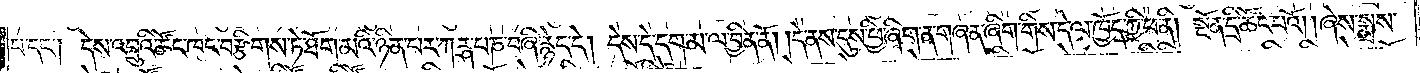པ་དང༌། དེས་འབྲུའི་ཚོང་ཁང་བརྩིགས་ཏེ་ཐོག་མའི་ཉིན་པར་ཀཪྴ་པ་ཎ་བཞི་རྙེད་དེ། དེས་དེ་དག་མ་ལ་བྱིན་ནོ། །དེ་ནས་དུས་ཕྱི་ཞིག་ན་གཞན་ཞིག་གིས་དེ་ལ་ཁྱོད་ཀྱི་ཕ་ནི། སྔོན་དྲི་ཚོང་པའོ། །ཞེས་སྨྲས་
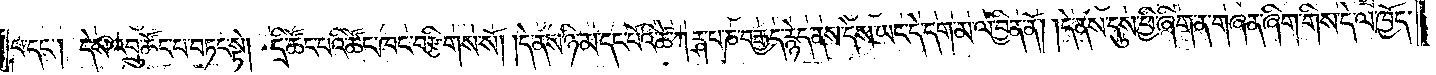པ་དང༌། དེས་འབྲུ་ཚོང་པ་བཏང་སྟེ། དྲི་ཚོང་པའི་ཚོང་ཁང་བརྩིགས་སོ། །དེ་ནས་ཉི་མ་དང་པོའི་ཚེ་ཀཪྴ་པ་ཎ་བརྒྱད་རྙེད་ནས་དེས་ཡང་དེ་དག་མ་ལ་བྱིན་ནོ། །དེ་ནས་དུས་ཕྱི་ཞིག་ན་གཞན་ཞིག་གིས་དེ་ལ་ཁྱོད་
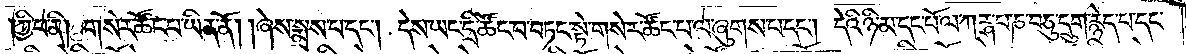ཀྱི་ཕ་ནི། གསེར་ཚོང་པ་ཡིན་ནོ། །ཞེས་སྨྲས་པ་དང༌། དེས་ཡང་དྲི་ཚོང་པ་བཏང་སྟེ་གསེར་ཚོང་པ་ལ་ཞུགས་པ་དང༌། དེའི་ཉི་མ་དང་པོ་ལ་ཀཪྴ་པ་ཎ་བཅུ་དྲུག་རྙེད་པ་དང་
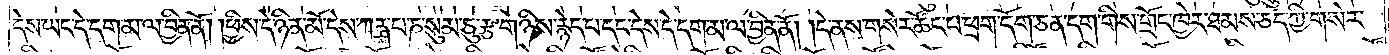དེས་ཡང་དེ་དག་མ་ལ་བྱིན་ནོ། །ཕྱིས་དེ་ཉིན་མོ་དེས་ཀཪྴ་པ་ཎ་སུམ་ཅུ་རྩ་གཉིས་རྙེད་པ་དང་དེས་དེ་དག་མ་ལ་བྱིན་ནོ། །དེ་ནས་གསེར་ཚོང་པ་ཕྲག་དོག་ཅན་དག་གིས་གྲོང་ཁྱེར་ཐམས་ཅད་ཀྱི་གསེར་
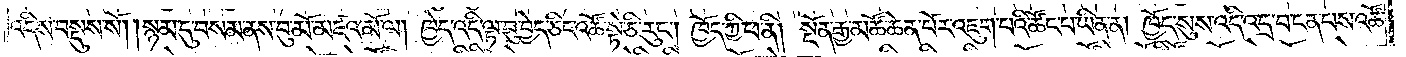འདིས་བསྡུས་སོ། །སྙམ་དུ་བསམ་ནས་བུ་མོ་མཛའ་མོ་ལ། ཁྱེད་འདི་ལྟ་བུ་བྱེད་ཅིང་འཚོ་སྟེ་ཅི་རུང༌། ཁྱོད་ཀྱི་ཕ་ནི། སྔོན་རྒྱ་མཚོ་ཆེན་པོར་འཇུག་པའི་ཚོང་པ་ཡིན་ན། ཁྱོད་སུས་འདི་འདྲ་བ་ངན་པས་འཚོ་
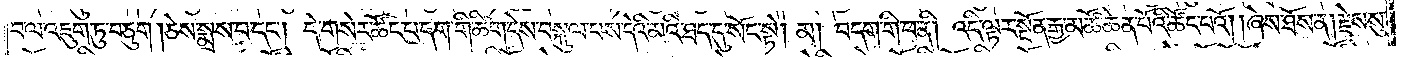བ་ལ་འཇུག་ཏུ་བཅུག །ཅེས་སྨྲས་པ་དང༌། དེ་གསེར་ཚོང་པ་དག་གི་ཚིག་དེས་བསྐུལ་པས་དེའི་མའི་ཐད་དུ་སོང་སྟེ། མ། བདག་གི་ཕ་ནི། འདི་ལྟར་སྔོན་རྒྱ་མཚོ་ཆེན་པོའི་ཚོང་པའོ། །ཞེས་ཐོས་ན། རྗེས་སུ་
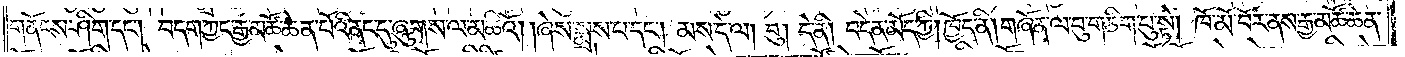གནོངས་ཤིག་དང༌། བདག་ཀྱང་རྒྱ་མཚོ་ཆེན་པོའི་ནང་དུ་ཞུགས་ལ་མཆིའོ། །ཞེས་སྨྲས་པ་དང༌། མས་དེ་ལ། བུ། དེ་ནི། བདེན་མོད་ཀྱི། ཁྱོད་ནི། གཞོན་ལ་བུ་གཅིག་པུ་སྟེ། ཁོ་མོ་བོར་ནས་རྒྱ་མཚོ་ཆེན་
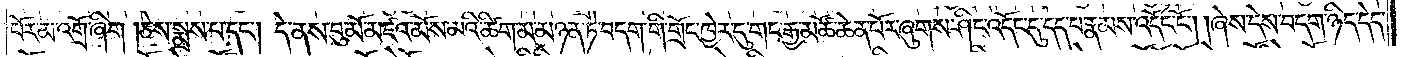པོར་མ་འགྲོ་ཞིག །ཅེས་སྨྲས་པ་དང༌། དེ་ནས་བུ་མོ་མཛའ་མོས་མའི་ཚིག་མ་མཉན་ཏེ་བདག་གི་གྲོང་ཁྱེར་དུ་གང་རྒྱ་མཚོ་ཆེན་པོར་ཞུགས་ཤིང་འདོང་དུ་དད་པ་རྣམས་འདོང་ངོ༌། །ཞེས་དེས་བདག་ཉིད་དེད་
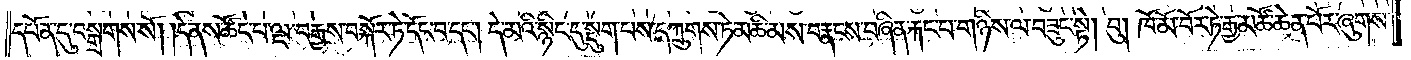དཔོན་དུ་བསྒྲགས་སོ། །དེ་ནས་ཚོང་པ་ལྔ་བརྒྱས་བསྐོར་ཏེ་དོང་བ་དང༌། དེ་མའི་སྙིང་དུ་སྡུག་པས་དཀྲུགས་ཏེ་མཆི་མས་བརྣངས་བཞིན་རྐང་པ་གཉིས་ལ་བཟུང་སྟེ། བུ། ཁོ་མོ་བོར་ཏེ་རྒྱ་མཚོ་ཆེན་པོར་ཞུགས་
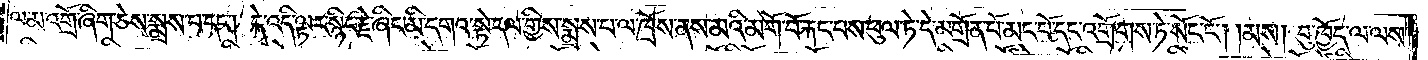ལ་མ་འགྲོ་ཞིག་ཅེས་སྨྲས་པ་དང༌། དེ་འདི་ལྟར་སྙིང་རྗེ་ཞིང་མི་དགའ་སྟེ་དལ་གྱིས་སྨྲས་པ་ལ་ཁྲོས་ནས་མའི་མགོ་བོ་རྐང་པས་ཕུལ་ཏེ་དེ་མགྲོན་པོ་མང་པོ་དང་འགྲོགས་ཏེ་སོང་ངོ༌། །མས། བུ་ཁྱོད་ལ་ལས་
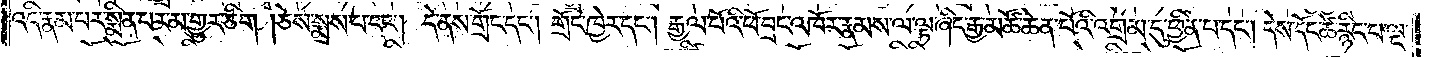འདི་རྣམ་པར་སྨིན་པར་མ་གྱུར་ཅིག །ཅེས་སྨྲས་པ་དང༌། དེ་ནས་གྲོང་དང༌། གྲོང་ཁྱེར་དང༌། རྒྱལ་པོའི་ཕོ་བྲང་འཁོར་རྣམས་ལ་ལྟ་ཞིང་རྒྱ་མཚོ་ཆེན་པོའི་འགྲམ་དུ་ཕྱིན་པ་དང༌། དེས་དོང་ཚེ་རྙིང་པ་ལྔ་
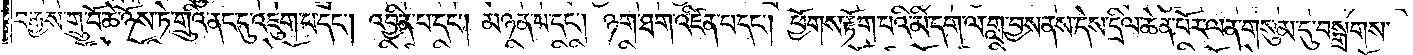བརྒྱས་གྲུ་བོ་ཆེ་ཉོས་ཏེ་གྲུའི་ནང་དུ་འཇུག་པ་དང༌། འབྱིན་པ་དང༌། མཉན་པ་དང༌། ཉག་ཐག་འཛིན་པ་དང༌། ཕྱོགས་རྟོག་པའི་མི་དག་ལ་གླ་བྱས་ནས་དེས་དྲིལ་ཆེན་པོར་ལན་གསུམ་དུ་བསྒྲགས་
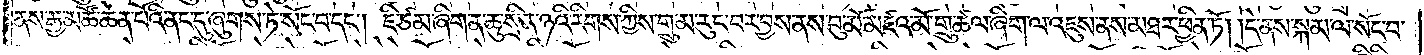ནས་རྒྱ་མཚོ་ཆེན་པོའི་ནང་དུ་ཞུགས་ཏེ་སོང་བ་དང༌། ཇི་ཙམ་ཞིག་ན་ཆུ་སྲིན་ཉའི་རིགས་ཀྱིས་གྲུ་མ་རུང་བར་བྱས་ནས་བུ་མོ་མཛའ་མོ་གྲུ་ཚལ་ཞིག་ལ་འཇུས་ནས་མཐར་ཕྱིན་ཏོ། །དེ་ནས་སྐམ་ལ་སོང་བ་
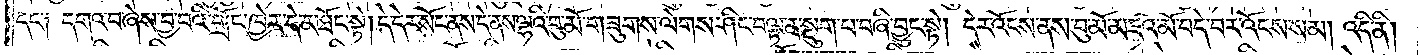དང་༑ དགའ་བ་ཞེས་བྱ་བའི་གྲོང་ཁྱེར་དེ་མཐོང་སྟེ། དེ་དེར་སོང་ནས་དེ་ནས་ལྷའི་བུ་མོ་གཟུགས་ལེགས་ཤིང་བལྟ་ན་སྡུག་པ་བཞི་བྱུང་སྟེ། དེར་འོངས་ནས་བུ་མོ་མཛའ་མོ་བདེ་བར་འོངས་སམ། འདི་ནི།
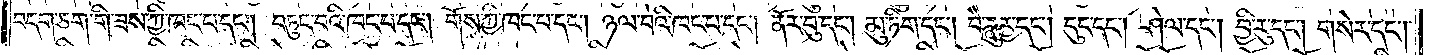བདག་ཅག་གི་ཟས་ཀྱི་ཁང་པ་དང༌། བཏུང་བའི་ཁང་པ་དང༌། གོས་ཀྱི་ཁང་པ་དང༌། ཉལ་བའི་ཁང་པ་དང༌། ནོར་བུ་དང༌། མུ་ཏིག་དང༌། བཻ་ཌཱུརྱདང༌། དུང་དང༌། ཤེལ་དང༌། བྱི་རུ་དང༌། གསེར་དང༌།
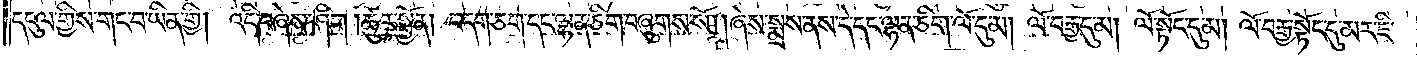དངུལ་གྱིས་གང་བ་ཡིན་གྱི། འདི་བཞེས་ཤིག །ཚུར་སྤྱོན། བདག་ཅག་དང་ལྷན་ཅིག་བཞུགས་སོ། །ཞེས་སྨྲས་ནས་དེ་དང་ལྷན་ཅིག་ལོ་དུ་མ། ལོ་བརྒྱ་དུ་མ། ལོ་སྟོང་དུ་མ། ལོ་བརྒྱ་སྟོང་དུ་མར་ཇི་
